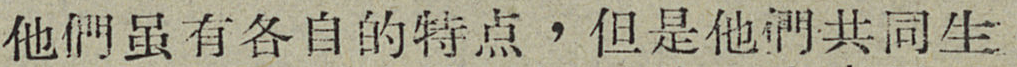他們虽有各自的特点，但是他們共同生
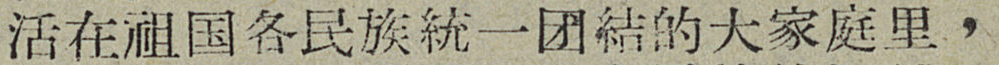活在祖国各民族統一团結的大家庭里，
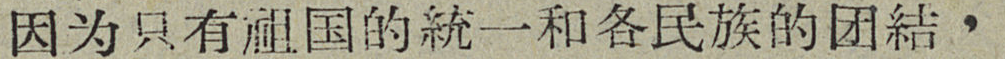因为只有祖国的統一和各民族的团結，
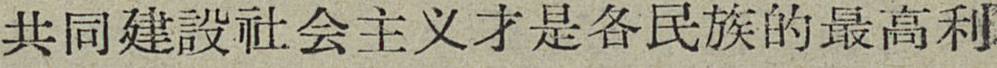共同建設社会主义才是各民族的最高利
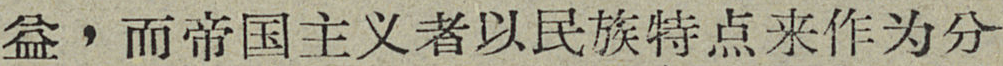益，而帝国主义者以民族特点来作为分
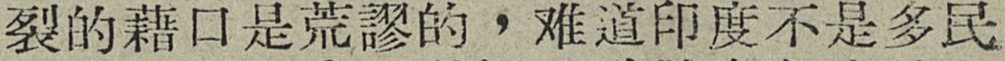裂的藉口是荒謬的，难道印度不是多民
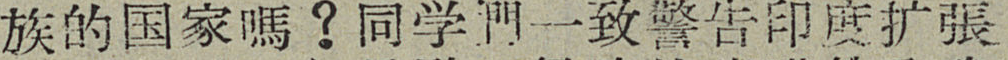族的国家嗎？同学們一致警告印度扩張
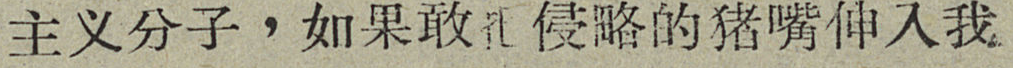主义分子，如果敢把侵略的猪嘴伸入我
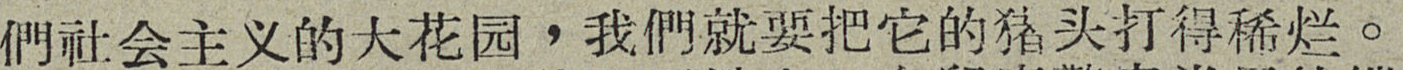們社会主义的大花园，我們就要把它的猪头打得稀烂。
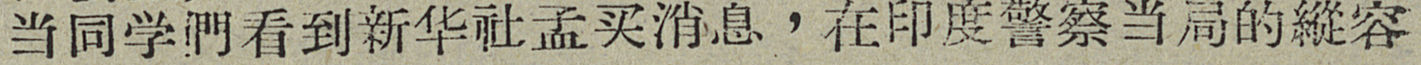当同学們看到新华社孟买消息，在印度警察当局的縱容
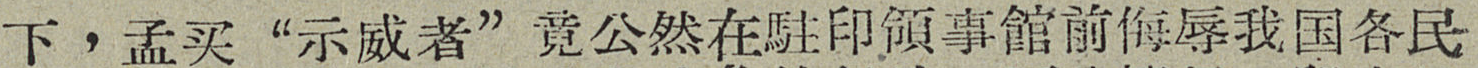下，孟买“示威者”竟公然在駐印領事館前侮辱我国各民
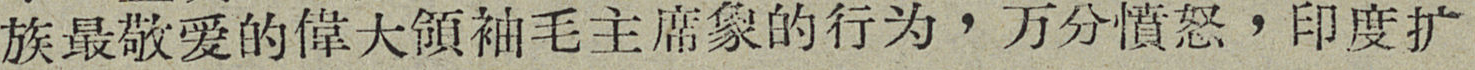族最敬爱的偉大領袖毛主席象的行为，万分憤怒，印度扩
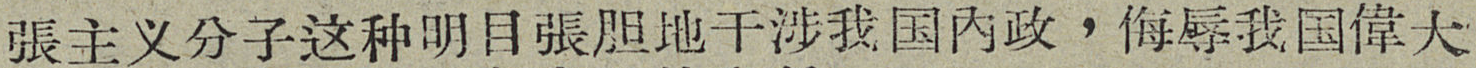張主义分子这种明目張胆地干涉我国内政，侮辱我国偉大
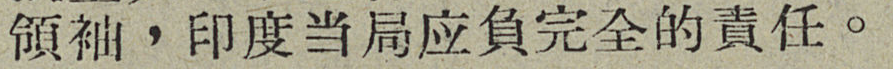領袖，印度当局应負完全的責任。
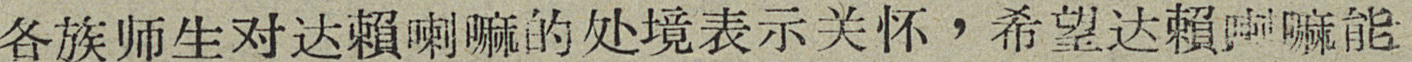各族师生对达賴喇嘛的处境表示关怀，希望达賴喇嘛能
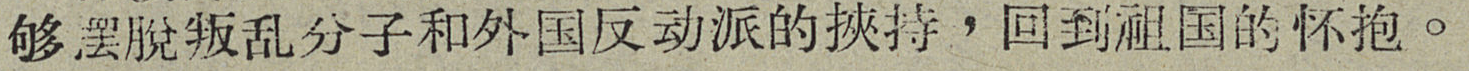够摆脫叛乱分子和外国反动派的挾持，回到祖国的怀抱。
